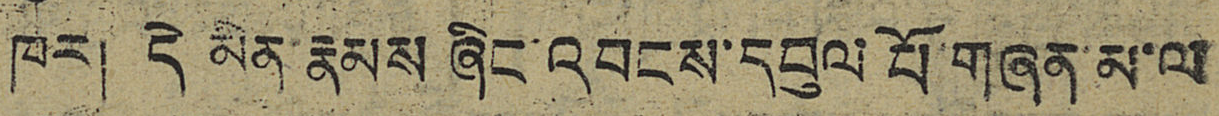ཁར། དེ མིན་རྣམས ཞིང་འབངས་དབུལ་པོ་གཞན་མ་ལ
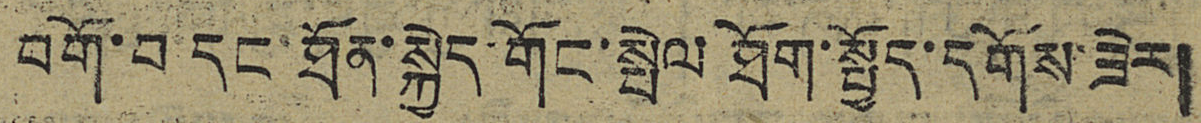བགོ་བ དང ཐོན་སྐྱེད་གོང་སྤེལ ཐོག་སྤྱོད་དགོས་ཟེར།
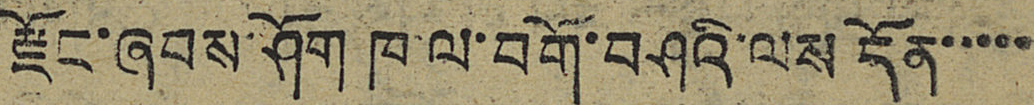རྫོང་ཞབས་ཤོག་ཁ་ལ་བགོ་བཤའི་ལས དོན་་་་་
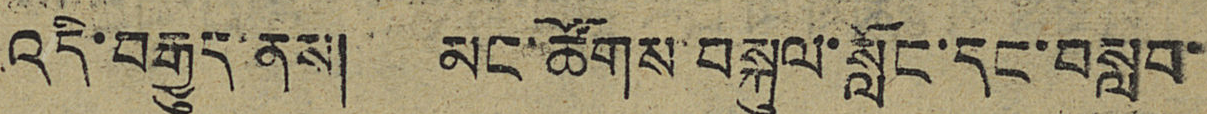འདི་བརྒྱུད་ནས། མང་ཚོགས་བསྐུལ་སློང་དང་བསླབ་
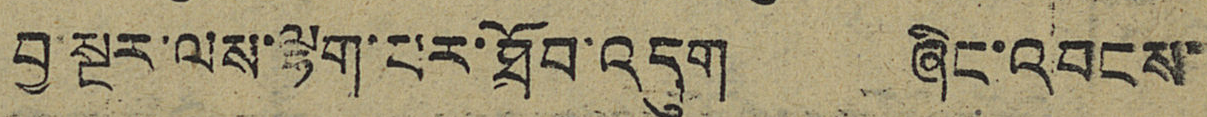བྱ་སྔར་ལས་ལྷག་པར་ཐོབ་འདུག ཞིང་འབངས་
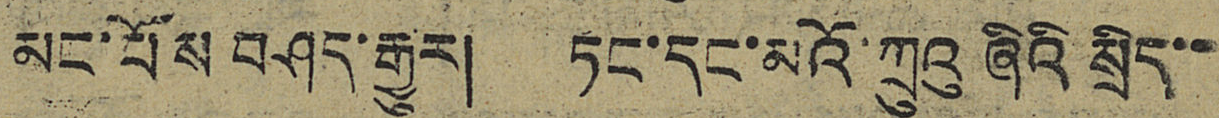མང་པོས བཤད་རྒྱུར། ཏང་དང་མའོ་ཀྲུའུ ཞིའི སྲིད་་
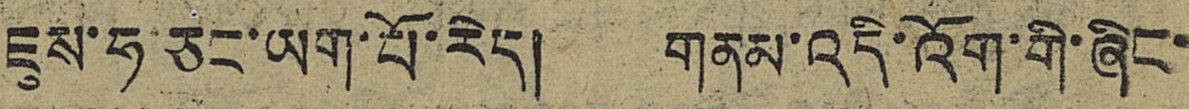ཇུས་ཧ་ཅང་ཡག་པོ་རེད། གནམ་འདི་འོག་གི་ཞིང་
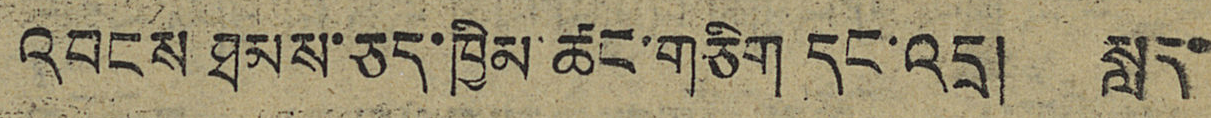འབངས ཐམས་ཅད་ཁྱིམ་ཚང་གཅིག དང་འདྲ། སླད་
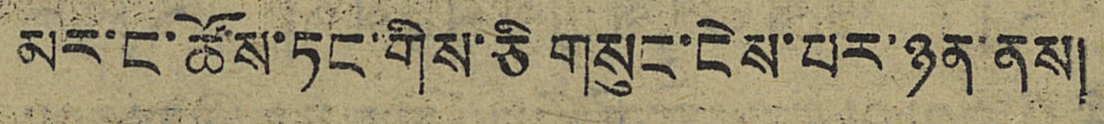མར་ང་ཚོས་ཏང་གིས་ཅི གསུང་ངེས་པར་ཉན་ནས།
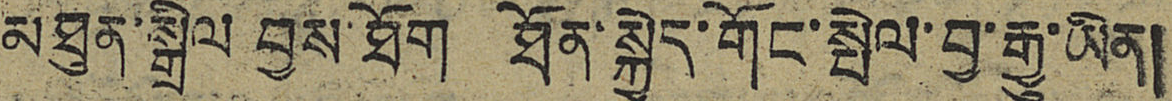མཐུན་སྒྲིལ བྱས་ཐོག ཐོན་སྐྱེད་གོང་སྤེལ་བྱ་རྒྱུ་ཡིན།
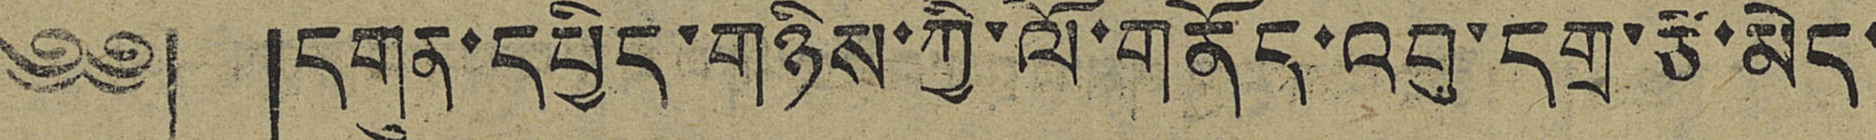༄༅། །དགུན་དཔྱིད་གཉིས་ཀྱི་ལོ་གནོད་འབུ་དགྲ་རྩ་མེད་
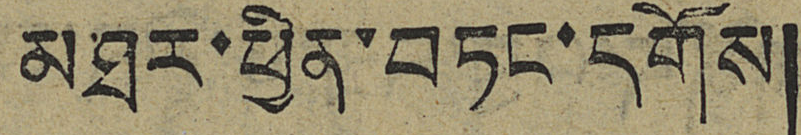མཐར་ཕྱིན་བཏང་དགོས།
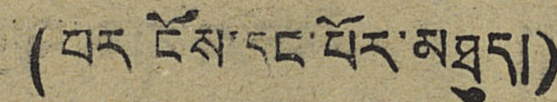(བར་ངོས་དང་པོར་མཐུད།)
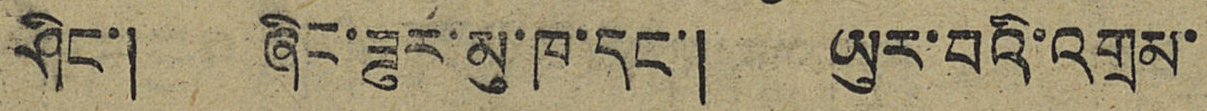ཤིང་། ཞིང་ཟུར་མུ་ཁ་དང་། ཡུར་བའི་འགྲམ་
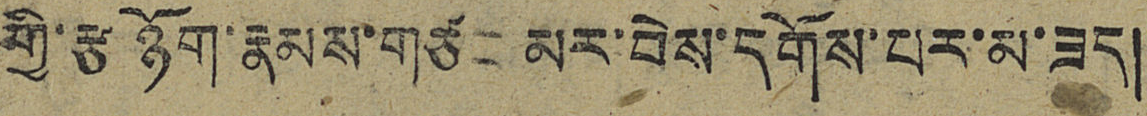གྱི་རྩ ཉོག་རྣམས་གཙང མར་བེས་དགོས་པར་མ་ཟད།
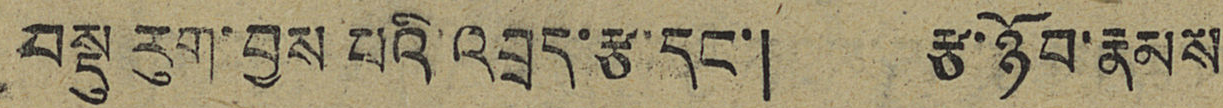བསྡུ རུག་བྱས་པའི་འབྲད་རྩ་དང་། རྩ་ཉོབ་རྣམས
